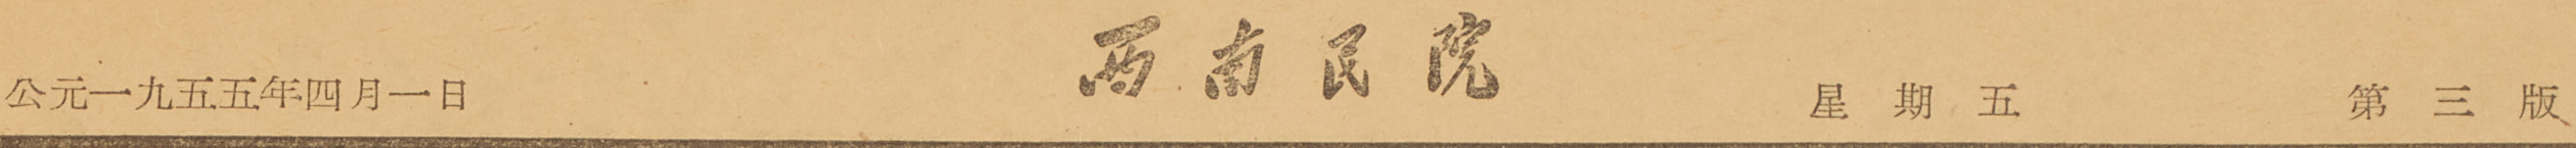公元一九五五年四月一日 西南民院 星期五 第三版
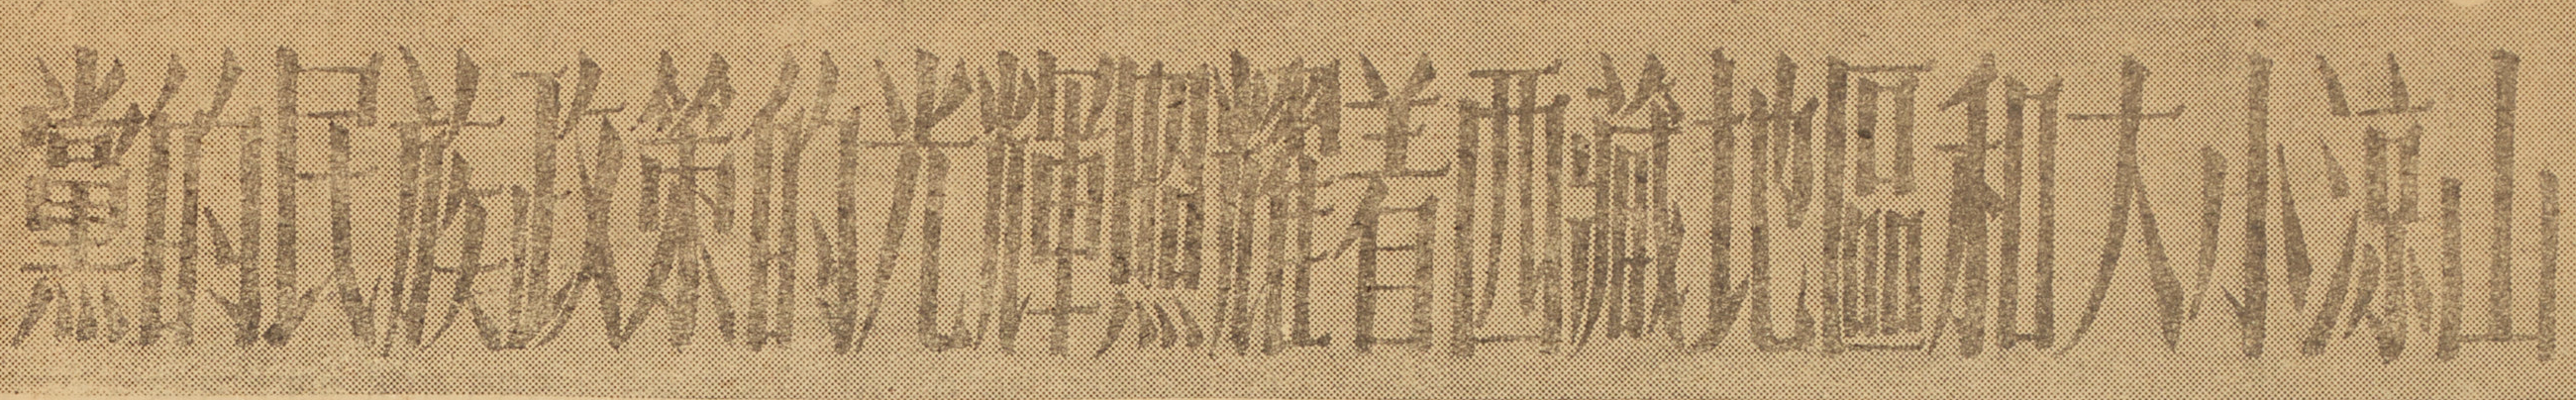黨的民族政策的光輝照耀着西藏地區和大小涼山
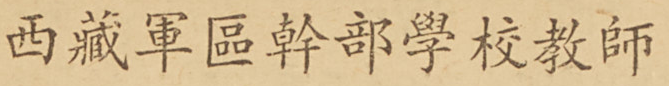西藏軍區幹部學校教師
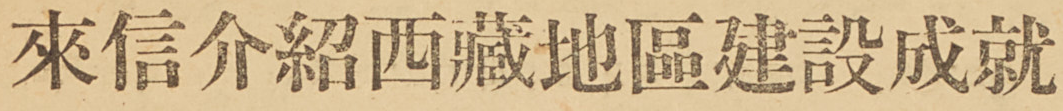來信介紹西藏地區建設成就
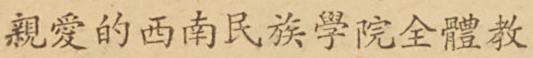親愛的西南民族學院全體教
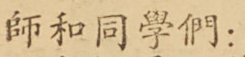師和同學們：
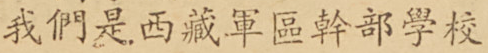我們是西藏軍區幹部學校
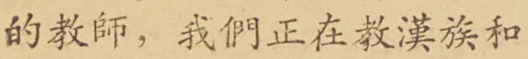的教師，我們正在教漢族和
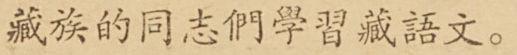藏族的同志們學習藏語文。
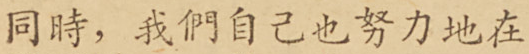同時，我們自己也努力地在
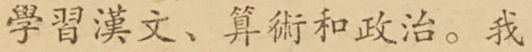學習漢文、算術和政治。我
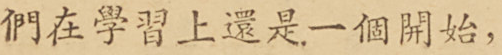們在學習上還是一個開始，
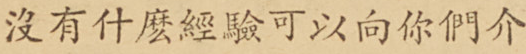沒有什麼經驗可以向你們介
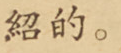紹的。
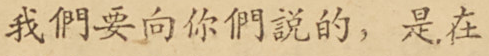我們要向你們說的，是在
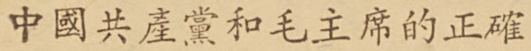中國共產黨和毛主席的正確
